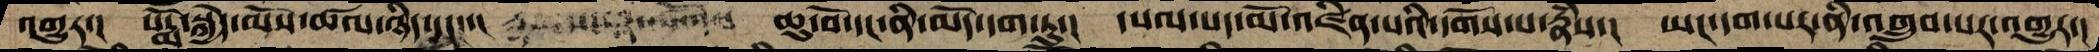འགྱུར་།  པདྨོ་སྐྱེད་མོས་ཚལ་ཉིད་དང་་།  ཆུ་བོ་དང་ནི་མདོ་དག་ཏུ་།  དཔལ་པད་མོ་འཛིན་པའི་དགོས་པ་རྣཾས་།  ཡང་དག་པར་ནི་འགྲུབ་པར་འགྱུར་།
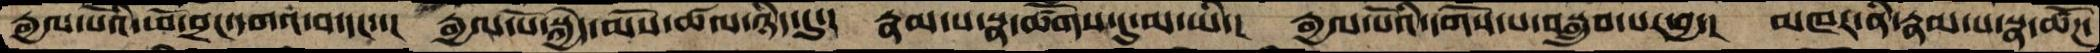རྒྱལ་པོའི་ཕོ་བྲང་དགའ་བ་དང་་།  རྒྱལ་པོ་སྐྱེད་མོས་ཚལ་ཉིད་དུ་།  རྣམ་པ་སྣ་ཚོགས་དུ་མ་ཡི་།  རྒྱལ་པོའི་དགོས་པ་བསྒྲུབ་པར་བྱ་།  མཁར་ནི་རྣམ་པ་སྣ་ཚོཌ་
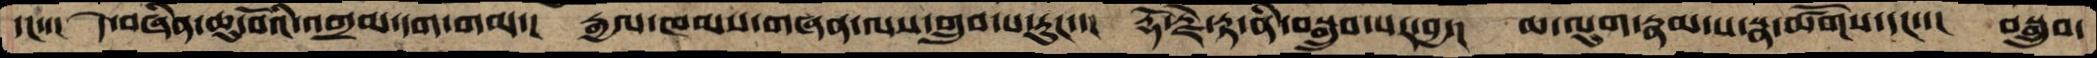དང་་།  དེ་བཞིན་ཆུ་བོའི་འགྲམ་དག་གམ་།  རྒྱལ་ཁམས་གཞན་ལས་གྲུབ་པ་རུང་་།  རྡོ་རྗེ་རྟ་ནི་བསྒྲུབ་པར་བྱ་།  ཆ་ལུག་རྣམ་པ་སྣ་ཚོགས་དང་་།  བསྒྲུབ་
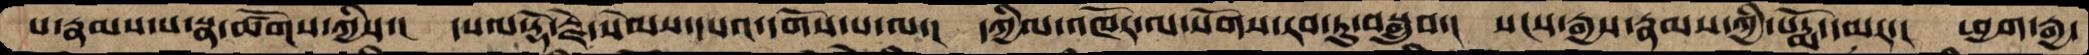པ་རྣམས་པ་སྣ་ཚོགས་ཀྱིས་།   དཔལ་རྡོ་རྗེ་སེམས་དཔའ་དགོས་པ་ལ་།   དཀྱིལ་འཁོར་ལ་སོགས་རབ་ཏུ་བསྒྲུབ་།  སངས་རྒྱས་རྣམས་ཀྱི་པདྨོ་དམར་།  ཕྱག་རྒྱ་
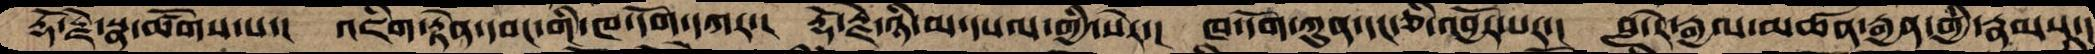རྡོ་རྗེ་སྣ་ཚོགས་པ་།   འཇིག་རྟེན་དབང་གི་ཁ་དོག་དཀར་།  རྡོ་རྗེ་ཉི་མ་དཔལ་གྱི་སེར་།  ཁ་དོག་ཀུན་དང་ཅི་འབྱོར་པར་།  བླ་རེ་རྒྱལ་མཚན་རྒྱན་གྱི་རྣམས་།
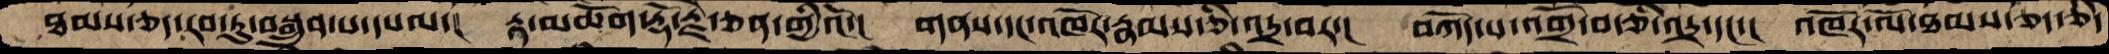ཐམས་ཅད་རབ་ཏུ་བསྒྲུབ་པ་དཔལ་།  རྟ་མཆོག་རྡོ་རྗེ་ཅན་གྱིའོ་།  གནས་དང་འཁོར་རྣམས་ཅི་འདྲ་བར་།  བཀོད་པ་འགྲོ་བ་ཅི་འདྲ་དང་།  འཁོར་ལོ་ཐམས་ཅད་ཅི་
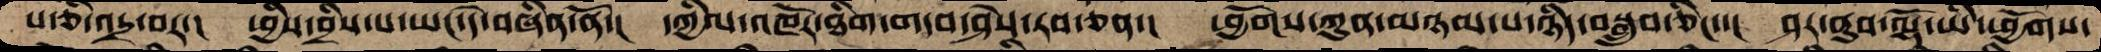པ་ཅི་འདྲ་བར་།  ཕྱིས་བྲིས་པ་ཡང་དེ་བཞིན་ནོ་།  དཀྱིལ་འཁོར་ཐིག་གདབ་ཤེས་རབ་ཅན་།  ཕྱོགས་ཀུན་མཉམ་པ་ཉིད་བསྒྲུབ་ཅིང་་།  ཤར་ནུབ་ལྷོ་ཡི་ཕྱོགས་
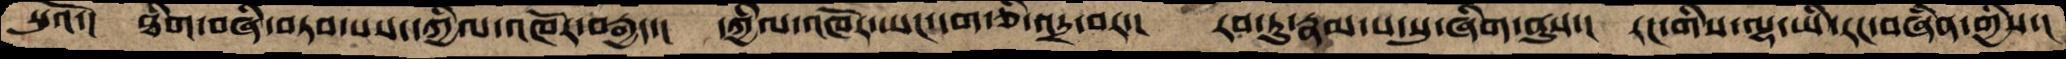སུའོ་།   ཐིག་བཞི་བཏབ་པས་དཀྱིལ་འཁོར་བརྒྱད་།   དཀྱིལ་འཁོར་ཡང་དག་ཅི་འདྲ་བར་།  རབ་ཏུ་རྣམ་པ་སུ་ཞིག་ནུས་།  རང་གིས་ལྷ་ཡི་རང་བཞིན་གྱིས་།
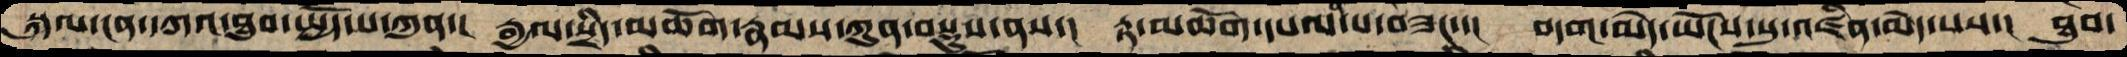སྐུལ་ངན་དཀའ་ཐུབ་སྤྱོད་པ་ཀུན་། རྒྱལ་སྲིད་མཆོག་རྣམས་ཀུན་བསྡུས་ནས་། རྟ་མཆོག་དཔལ་པ་བཟང་་། བདག་མེད་ཡོངས་སུ་འཛིན་མེད་པས་། ཐུབ་
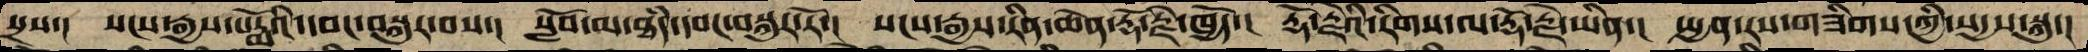སྲས་།  སངས་རྒྱས་པདྨོའི་དབང་བསྐུར་བས་།   སློབ་མ་ཐཾད་དབང་བསྐུར་རོ་།  སངས་རྒྱས་རིན་ཆེན་རྡོ་རྗེ་ཁྱོད་།  རྡོ་རྗེའི་རིགས་ལ་རྡོ་རྗེ་ཡིན་།  སྤྱན་རས་གཟིགས་ཀྱི་སདྱས་སྐུ་།
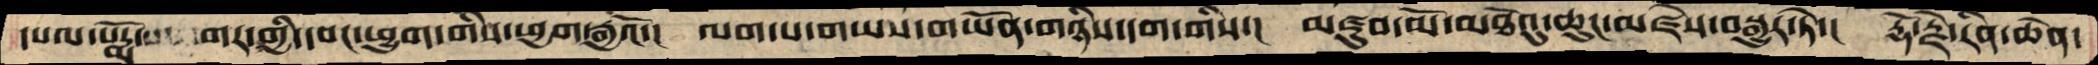དཔལ་པདྨོ་གར་གྱི་དབང་ཕྱུག་གིས་ཕྱག་རྒྱའོ་། ལག་པ་གཡས་གཡོན་གཉིས་དག་གིས་། མཛུབ་མོ་མཐེའུ་ཆུང་མཛེས་བསྒྱུར་ཏེ་། རྡོ་རྗེ་རིན་ཆེན་
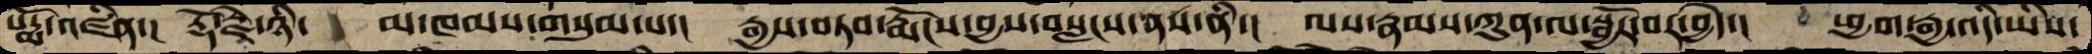པདྨོ་འཛིན་།   རྡོ་རྗེ་ཉི་     མ་ཁམས་གསུམ་པ་། རྒྱས་བཏབ་རྨོངས་བྱས་བསླངས་ནས་ནི་། ལས་རྣམས་ཀུན་ལ་སྦྱོར་བར་བྱེད་། ཕྱག་རྒྱ་འདི་ཡིས་
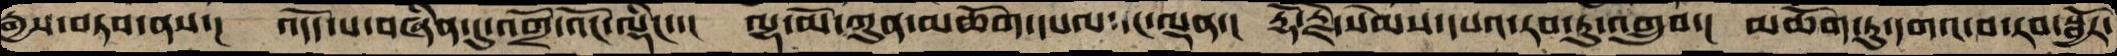རྒྱས་བཏབ་ནས་།  འདོད་པ་བཞིན་དུ་འགྲོ་འོང་ལྡིང་་།  ལྷ་མོ་ཀུན་མཆོག་དཔལ་དང་ལྡན་།  རྡོ་རྗེ་སེམས་དཔའ་རབ་ཏུ་འགྲུབ་།  མཆོག་ཏུ་དགའ་བ་རབ་སྦྱོར་
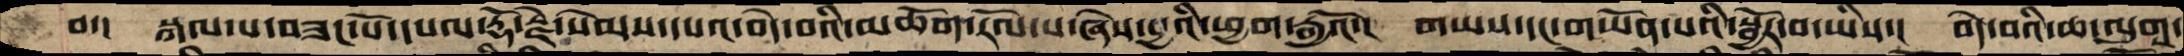བ་།  སྐལ་པ་བཟང་པོ་དཔལ་རྡོ་རྗེ་སེམས་དཔའ་བདེ་བའི་མཆོག་རོལ་པ་ཞེས་བྱྲའི་ཕྱག་རྒྱའོ་།  གཡས་དང་གཡོན་པའི་སྦྱོར་བ་ཡིས་།  བདེ་བའི་ཆ་ལུག་
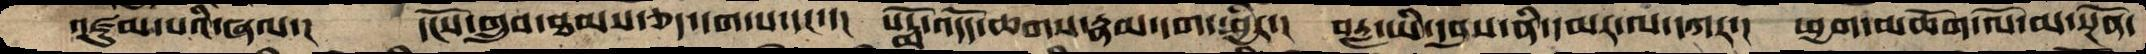འཛུམ་པའི་ཞལ་།  དངོས་གྲུབ་ཐམས་ཅད་དག་པ་དང་་།  པདྨོ་འདོད་ཆགས་རྣམ་དག་ཕྱིར་།  བརླ་ཡི་དབུས་ནི་དམར་ལ་དཀར་།  ཕྱག་མཆོག་ལོ་མ་སྔོན་
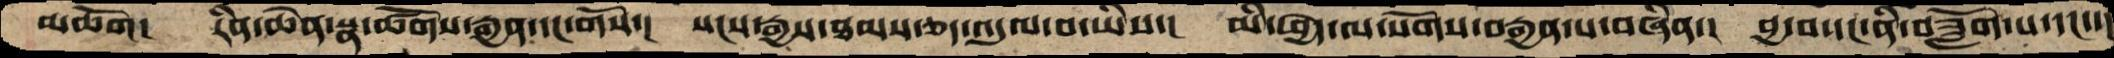མཆོག།  རིན་ཆེན་སྣ་ཚོགས་རྒྱན་དང་གོས་།  སངས་རྒྱས་ཐམས་ཅད་འདུལ་བ་ཡིས་།  མི་ཕྱེད་ལ་སོགས་བརྒྱན་པ་བཞིན་།  བྱབ་དང་ནི་བཟློག་པ་དང་་།
